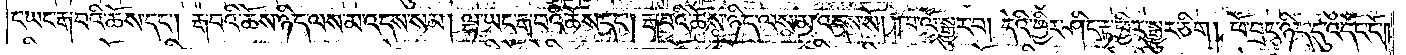ང་ཡང་རྒ་བའི་ཆོས་དང༌། རྒ་བའི་ཆོས་ཉིད་ལས་མ་འདས་སམ། ལྷ་ཡང་རྒ་བའི་ཆོས་དང༌། རྒ་བའི་ཆོས་ཉིད་ལས་མ་འདས་སོ། །ཁ་ལོ་སྒྱུར་བ། དེའི་ཕྱིར་ཤིང་རྟ་ཕྱིར་སྒྱུར་ཅིག །ཕོ་བྲང་ཉིད་དུ་འདོང་ངོ༌།
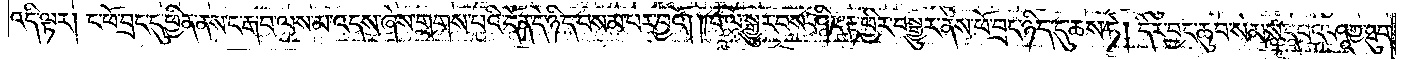འདི་ལྟར། ང་ཕོ་བྲང་དུ་ཕྱིན་ནས་ང་རྒ་བ་ལས་མ་འདས་ཞེས་གྲགས་པའི་དོན་དེ་ཉིད་བསམ་པར་བྱའོ། །ཁ་ལོ་སྒྱུར་བས་ཤིང་རྟ་ཕྱིར་བསྒྱུར་ནས་ཕོ་བྲང་ཉིད་དུ་ཆས་ཏེ། དེར་བྱང་ཆུབ་སེམས་དཔའ་ཤཱཀྱ་ཐུབ་
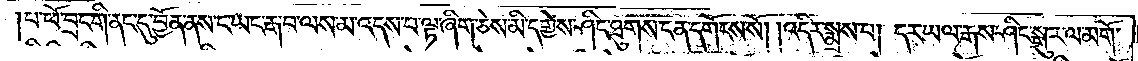པ་ཕོ་བྲང་གི་ནང་དུ་བྱོན་ནས་ང་ཡང་རྒ་བ་ལས་མ་འདས་པ་ལྟ་ཞིག་ཅེས་མི་དགྱེས་ཤིང་ཐུགས་ངན་དགོངས་སོ། །འདིར་སྨྲས་པ། དར་ཡལ་རྒས་ཤིང་སྒུར་ལ་མགོ་
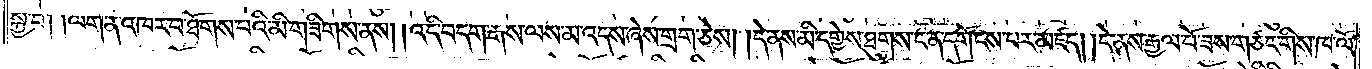སྐྱ་བ། །ལག་ན་འཁར་བ་ཐོགས་པའི་མི་གཟིགས་ནས། །འདི་བདག་རྒས་ལས་མ་འདས་ཞེས་གྲག་ཅེས། །དེ་ནས་མི་དགྱེས་ཐུགས་ངན་དགོངས་པར་མཛད། །དེ་ནས་རྒྱལ་པོ་ཟས་གཅང་གིས་ཁ་ལོ་
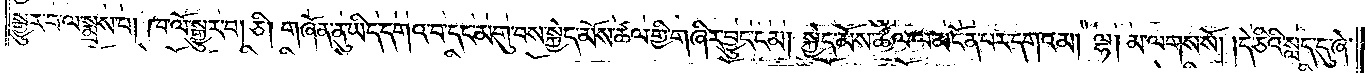སྒྱུར་བ་ལ་སྨྲས་པ། ཁ་ལོ་སྒྱུར་བ། ཅི། གཞོན་ནུ་ཡིད་དགའ་བ་དང་མགུ་བས་སྐྱེད་མོས་ཚལ་གྱི་གཞིར་བྱུང་ངམ། སྐྱེད་མོས་ཚལ་ལ་མངོན་པར་དགའམ། ལྷ། མ་ལགས་སོ། །དེ་ཅིའི་སླད་དུ་ཞེ་
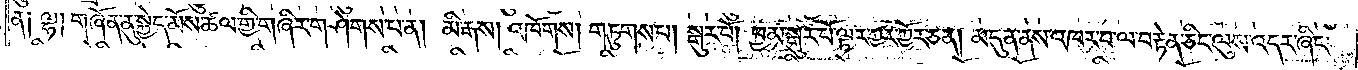ན། ལྷ། གཞོན་ནུ་སྐྱེད་མོས་ཚལ་གྱི་གཞིར་གཤེགས་པ་ན། མི་རྒས། འཁོགས། གཏུགས་པ། སྒུར་པོ། ཕྱམ་སྒུར་པོ་ལྟར་ཀྱར་ཀྱོར་ཅན། མདུན་ནས་འཁར་བ་ལ་བརྟེན་ཅིང་ལུས་འདར་ཞིང་
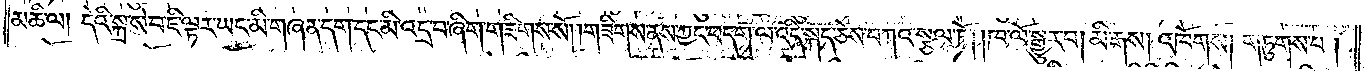མཆི་ལ། དེའི་སྐྲ་སེ་བ་ཇི་ལྟར་ཡང་མི་གཞན་དག་དང་མི་འདྲ་བ་ཞིག་གཟིགས་སོ། །གཟིགས་ནས་ཀྱང་བདག་ལ་འདི་སྐད་ཅེས་བཀའ་སྩལ་ཏོ། །ཁ་ལོ་སྒྱུར་བ། མི་རྒས། འཁོགས། གཏུགས་པ།
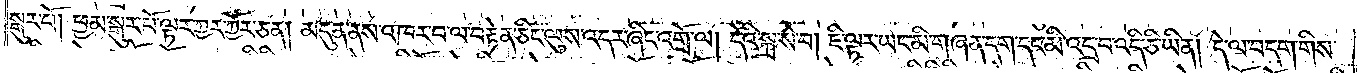སྒུར་པོ། ཕྱམ་སྒུར་པོ་ལྟར་ཀྱར་ཀྱོར་ཅན། མདུན་ནས་འཁར་བ་ལ་བརྟེན་ཅིང་ལུས་འདར་ཞིང་འགྲོ་ལ། དེའི་སྐྲ་སེ་བ། ཇི་ལྟར་ཡང་མི་གཞན་དག་དང་མི་འདྲ་བ་འདི་ཅི་ཡིན། དེ་ལ་བདག་གིས་
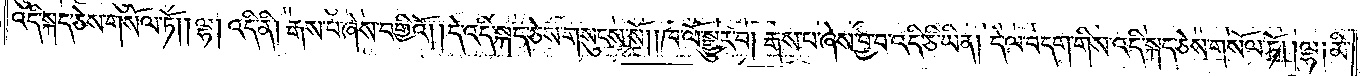འདི་སྐད་ཅེས་གསོལ་ཏོ། །ལྷ། འདི་ནི། རྒས་པ་ཞེས་བགྱིའོ། །དེ་འདི་སྐད་ཅེས་གསུངས་སོ། །ཁ་ལོ་སྒྱུར་བ། རྒས་པ་ཞེས་བྱ་བ་འདི་ཅི་ཡིན། དེ་ལ་བདག་གིས་འདི་སྐད་ཅེས་གསོལ་ཏོ། །ལྷ། མི་
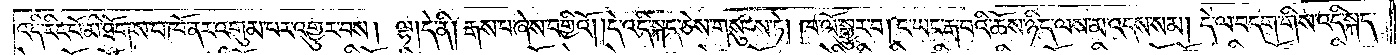འདི་རིང་པོ་མི་ཐོགས་པ་ཁོ་ནར་འགུམ་པར་འགྱུར་བས། ལྷ། དེ་ནི། རྒས་པ་ཞེས་བགྱིའོ། །དེ་འདི་སྐད་ཅེས་གསུངས་ཏེ། ཁ་ལོ་སྒྱུར་བ། ང་ཡང་རྒ་བའི་ཆོས་ཉིད་ལས་མ་འདས་སམ། དེ་ལ་བདག་གིས་འདི་སྐད་
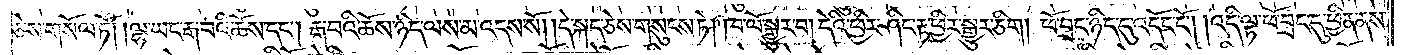ཅེས་གསོལ་ཏོ། །ལྷ་ཡང་རྒ་བའི་ཆོས་དང༌། རྒ་བའི་ཆོས་ཉིད་ལས་མ་འདས་སོ། །དེ་སྐད་ཅེས་གསུངས་ཏེ། ཁ་ལོ་སྒྱུར་བ། དེའི་ཕྱིར་ཤིང་རྟ་ཕྱིར་སྒྱུར་ཅིག །ཕོ་བྲང་ཉིད་དུ་འདོང་ངོ༌། །འདི་ལྟ་ཕོ་བྲང་དུ་ཕྱིན་ནས་
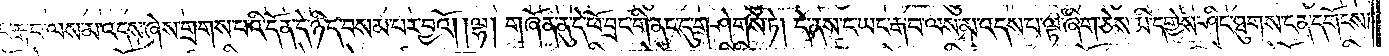ང་རྒ་བ་ལས་མ་འདས་ཞེས་གྲགས་པའི་དོན་དེ་ཉིད་བསམ་པར་བྱའོ། །ལྷ། གཞོན་ནུ་དེ་ཕོ་བྲང་གི་ནང་དུ་གཤེགས་ཏེ། དེ་ནས་ང་ཡང་རྒ་བ་ལས་མ་འདས་པ་ལྷ་ཞིག་ཅེས་མི་དགྱེས་ཤིང་ཐུགས་ངན་དགོངས་
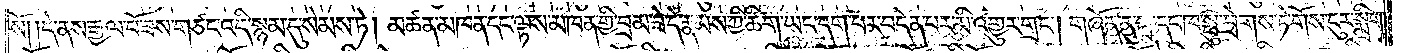སོ། །དེ་ནས་རྒྱལ་པོ་ཟས་གཙང་འདི་སྙམ་དུ་སེམས་ཏེ། མཚན་མཁན་དང་ལྟས་མཁན་གྱི་བྲམ་ཟེ་དེ་རྣམས་ཀྱི་ཚིག་ཡང་དག་པར་བདེན་པར་མི་འགྱུར་གྲང༌། གཞོན་ནུ་སྐྲ་དང་ཁ་སྤུ་བྲེགས་ཏེ་གོས་ངུར་སྨྲིག་
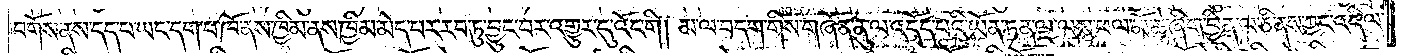བགོས་ནས་དད་པ་ཡང་དག་པ་ཁོ་ནས་ཁྱིམ་ནས་ཁྱིམ་མེད་པར་རབ་ཏུ་བྱུང་བར་འགྱུར་དུ་འོང་གི། མ་ལ་བདག་གིས་གཞོན་ནུ་ལ་འདོད་པའི་ཡོན་ཏན་ལྔ་ལས་ཕལ་མོ་ཆེ་ཞིག་བྱིན་ལ་ཅི་ནས་ཀྱང་འདི་ལ་
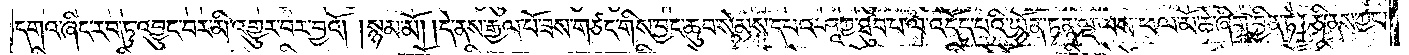དགའ་ཞིང་རབ་ཏུ་འབྱུང་བར་མི་འགྱུར་བར་བྱའོ། །སྙམ་མོ། །དེ་ནས་རྒྱལ་པོ་ཟས་གཙང་གིས་བྱང་ཆུབ་སེམས་དཔའ་ཤཱཀྱ་ཐུབ་པ་ལ་འདོད་པའི་ཡོན་ཏན་ལྔ་ལས་ཕལ་མོ་ཆེ་ཞིག་བྱིན་ཏེ། ཅི་ནས་ཀྱང་
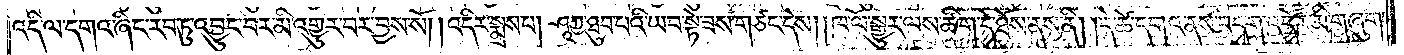འདི་ལ་དགའ་ཞིང་རབ་ཏུ་འབྱུང་བར་མི་འགྱུར་བར་བྱས་སོ། །འདིར་སྨྲས་པ། ཤཱཀྱ་ཐུབ་པའི་ཡབ་སྟེ་ཟས་གཙང་དེས། །ཁ་ལོ་སྒྱུར་ལས་ཚིག་དེ་ཐོས་ནས་ནི། །དེ་ཚེ་དགའ་ནས་བདག་འདོར་མི་གཞུག་
